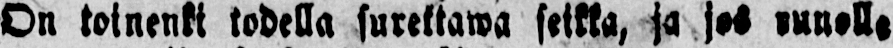On toinenki todella surettawa seikka, ja jos runolle
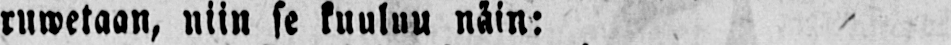ruwetaan niin se kuuluu näin:
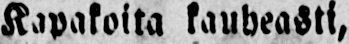Kapakoita kauheasti,
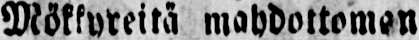Mökkyreitä mahdottoman
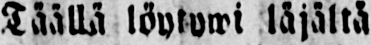Täällä löytywi läjältä
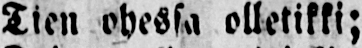Tien ohessa olletikki;
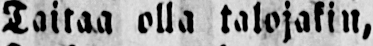Taitaa olla talojakin,
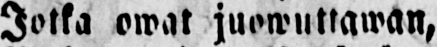Jotka owat juowuttawan,
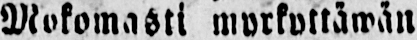Mokomasti myrkyttäwän
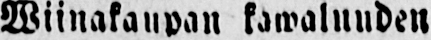Wiinakaupan kawaluuden
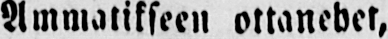Ammatikseen ottanehet,
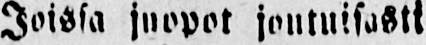Joissa juopot joutuisasti
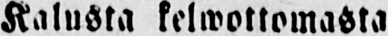Kalusta kelwottomasta
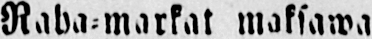Raha - markat maksawatkin,
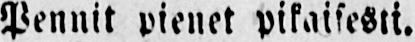Pennit pienet pikaisesti.
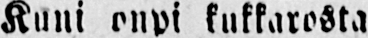Kuni onpi kukkarosta
